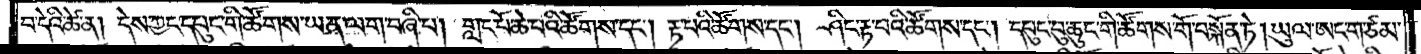བ་དེའི་ཚེ་ན། དེས་ཀྱང་དཔུང་གི་ཚོགས་ཡན་ལག་བཞི་པ། གླང་པོ་ཆེ་པའི་ཚོགས་དང༌། རྟ་པའི་ཚོགས་དང༌། ཤིང་རྟ་པའི་ཚོགས་དང༌། དཔུང་བུ་ཆུང་གི་ཚོགས་གོ་བསྐོན་ཏེ། ཡུལ་ཨང་ག་ཙམ་
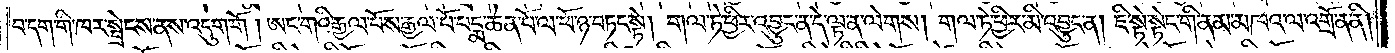བདག་གི་ཁར་སྦྲེངས་ནས་འདུག་གོ །ཨང་གའི་རྒྱལ་པོས་རྒྱལ་པོ་པདྨ་ཆེན་པོ་ལ་ཕོ་ཉ་བཏང་སྟེ། གལ་ཏེ་ཕྱིར་འབྱུང་ན་དེ་ལྟ་ན་ལེགས། གལ་ཏེ་ཕྱིར་མི་འབྱུང་ན། ཇི་སྟེ་སྟེང་གི་ནམ་མཁའ་ལ་འགྲོ་ན་ནི།
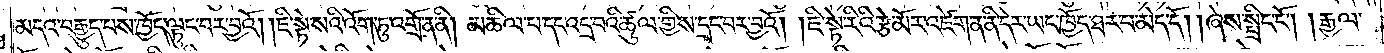མདའ་བརྒྱུད་པས་ཁྱོད་ལྟུང་བར་བྱའོ། །ཇི་སྟེ་སའི་འོག་ཏུ་འགྲོ་ན་ནི། མཆིལ་པ་དང་འདྲ་བའི་ཚུལ་གྱིས་དྲང་བར་བྱའོ། །ཇི་སྟེ་རིའི་རྩེ་མོར་འཛེག་ན་ནི་དེར་ཡང་ཁྱོད་ཐར་པ་མེད་དོ། །ཞེས་སྤྲིང་ངོ༌། །རྒྱལ་
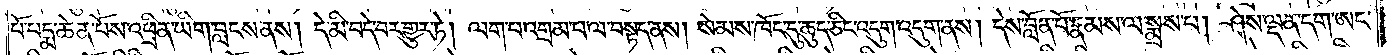པོ་པདྨ་ཆེན་པོས་འཕྲིན་ཡིག་བླངས་ནས། དེ་མི་བདེ་བར་གྱུར་ཏེ། ལག་པ་འགྲམ་པ་ལ་བསྟད་ནས། སེམས་ཁོང་དུ་ཆུད་ཅིང་འདུག་འདུག་ནས། དེས་བློན་པོ་རྣམས་ལ་སྨྲས་པ། ཤེས་ལྡན་དག་ཨང་
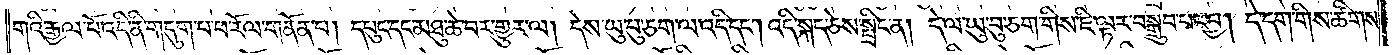གའི་རྒྱལ་པོ་འདི་ནི་གདུག་པ་ཕ་རོལ་གནོན་པ། དཔུང་དང་མཐུ་ཆེ་བར་གྱུར་ལ། དེས་ཡུ་བུ་ཅག་ལ་འདི་དང༌། འདི་སྐད་ཅེས་སྤྲིང་ན། དེ་ལ་ཡུ་བུ་ཅག་གིས་ཇི་ལྟར་བསྒྲུབ་པར་བྱ། དེ་དག་གིས་ཚིགས་
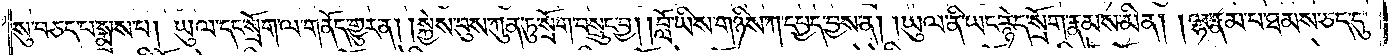སུ་བཅད་པ་སྨྲས་པ། ཡུལ་དང་སྲོག་ལ་གནོད་གྱུར་ན། །སྐྱེས་བུས་ཀུན་ཏུ་སྲོག་བསྲུང་བྱ། །བློ་ཡིས་གཉིས་ཀ་དཔྱད་བྱས་ན། །ཡུལ་ནི་ཡང་རྙེད་སྲོག་རྣམས་མིན། །ལྷ་རྣམ་པ་ཐམས་ཅད་དུ་
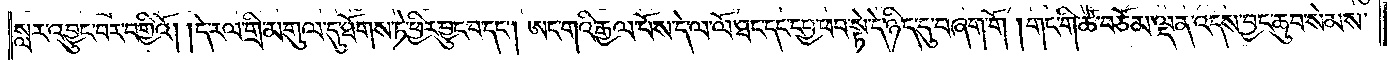སླར་འབྱུང་བར་བགྱིའོ། །དེ་རལ་གྲི་མགུལ་དུ་ཐོགས་ཏེ་ཕྱིར་བྱུང་བ་དང༌། ཨང་གའི་རྒྱལ་པོས་དེ་ལ་ལོ་ཐང་དང་དཔྱ་ཕབ་སྟེ་དེ་ཉིད་དུ་བཞག་གོ །གང་གི་ཚེ་བཅོམ་ལྡན་འདས་བྱང་ཆུབ་སེམས་
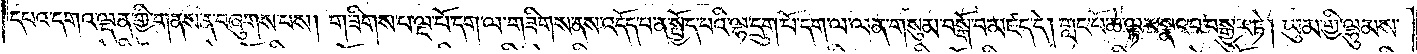དཔའ་དགའ་ལྡན་གྱི་གནས་ན་བཞུགས་པས། གཟིགས་པ་ལྔ་པོ་དག་ལ་གཟིགས་ནས་འདོད་པ་ན་སྤྱོད་པའི་ལྷ་དྲུག་པོ་དག་ལ་ལན་གསུམ་བསྒོ་བ་མཛད་དེ། གླང་པོ་ཆེ་ལྟར་སྣང་བ་བསྒྱུར་ཏེ། ཡུམ་གྱི་ལྷུམས་
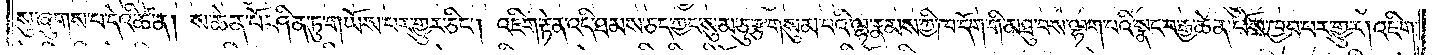སུ་ཞུགས་པ་དེའི་ཚེ་ན། ས་ཆེན་པོ་ཤིན་ཏུ་གཡོས་པར་གྱུར་ཅིང༌། འཇིག་རྟེན་འདི་ཐམས་ཅད་ཀྱང་སུམ་ཅུ་རྩ་གསུམ་པའི་ལྷ་རྣམས་ཀྱི་ཁ་དོག་གི་མཐུ་བས་ལྷག་པའི་སྣང་བ་རྒྱ་ཆེན་པོས་ཁྱབ་པར་གྱུར།འཇིག་
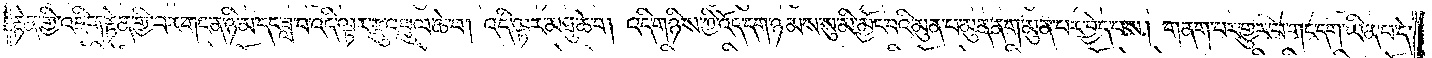རྟེན་གྱི་འཇིག་རྟེན་གྱི་བར་གང་ན་ཉི་མ་དང་ཟླ་བ་འདི་ལྟར་རྫུ་འཕྲུལ་ཆེ་བ། འདི་ལྟར་མཐུ་ཆེ་བ། འདི་གཉིས་ཀྱི་འོད་དག་ཉམས་སུ་མི་མྱོང་བའི་མུན་པ་མུན་ནག་མུན་པར་བྱེད་པས། གནག་པར་གྱུར་པ་གང་དག་ཡིན་པ་དེ་
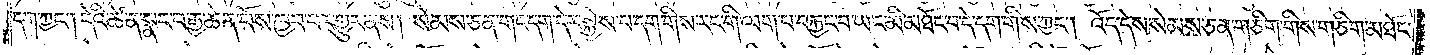དག་ཀྱང༌། དེའི་ཚེ་ན་སྣང་བ་རྒྱ་ཆེན་པོས་ཁྱབ་པར་གྱུར་ནས། སེམས་ཅན་གང་དག་དེར་སྐྱེས་པ་དག་གིས་རང་གི་ལག་པ་བརྐྱང་བ་ཡང་མི་མཐོང་བ་དེ་དག་གིས་ཀྱང༌། འོད་དེས་སེམས་ཅན་གཅིག་གིས་གཅིག་མཐོང་
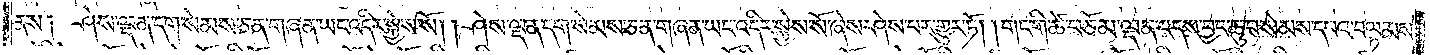ནས༑ ཤེས་ལྡན་དག་སེམས་ཅན་གཞན་ཡང་འདིར་སྐྱེས་སོ། ། ཤེས་ལྡན་དག་སེམས་ཅན་གཞན་ཡང་འདིར་སྐྱེས་སོ་ཞེས་ཤེས་པར་གྱུར་ཏོ། ། གང་གི་ཚེ་བཅོམ་ལྡན་འདས་བྱང་ཆུབ་སེམས་དཔའ་བལྟམས་
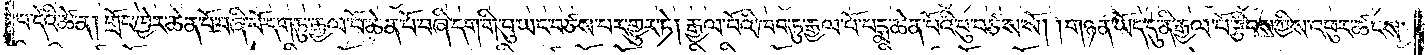པ་དེའི་ཚེ་ན། གྲོང་ཁྱེར་ཆེན་པོ་བཞི་པོ་དག་ཏུ་རྒྱལ་པོ་ཆེན་པོ་བཞི་དག་གི་བུ་ཡང་བཙས་པར་གྱུར་ཏེ། རྒྱལ་པོའི་ཁབ་ཏུ་རྒྱལ་པོ་པདྨ་ཆེན་པོའི་བུ་བཙས་སོ། །གཉན་ཡོད་དུ་ནི་རྒྱལ་པོ་རྩིབས་ཀྱིས་འཕུར་ཚངས་
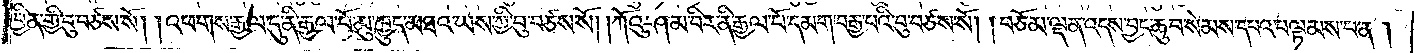བྱིན་གྱི་བུ་བཙས་སོ། ། འཕགས་རྒྱལ་དུ་ནི་རྒྱལ་པོ་མུ་ཁྱུད་མཐའ་ཡས་ཀྱི་བུ་བཙས་སོ། །ཀོའུ་ཤམ་བིར་ནི་རྒྱལ་པོ་དམག་བརྒྱ་བའི་བུ་བཙས་སོ། ། བཅོམ་ལྡན་འདས་བྱང་ཆུབ་སེམས་དཔའ་བལྟམས་པ་ན།
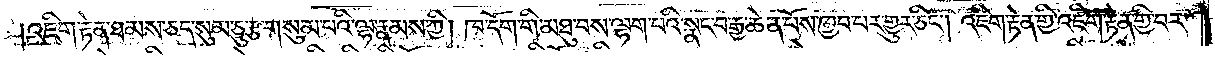འཇིག་རྟེན་ཐམས་ཅད་སུམ་ཅུ་རྩ་གསུམ་པའི་ལྷ་རྣམས་ཀྱི། ཁ་དོག་གི་མཐུ་བས་ལྷག་པའི་སྣང་བ་རྒྱ་ཆེན་པོས་ཁྱབ་པར་གྱུར་ཅིང༌། འཇིག་རྟེན་གྱི་འཇིག་རྟེན་གྱི་བར་
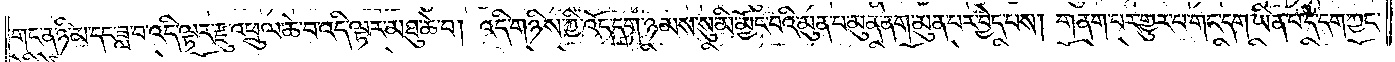གང་ན་ཉི་མ་དང་ཟླ་བ་འདི་ལྟར་རྫུ་འཕྲུལ་ཆེ་བ་འདི་ལྟར་མཐུ་ཆེ་བ། འདི་གཉིས་ཀྱི་འོད་དག་ཉམས་སུ་མི་མྱོང་བའི་མུན་པ་མུན་ནག་མུན་པར་བྱེད་པས། གནག་པར་གྱུར་པ་གང་དག་ཡིན་པ་དེ་དག་ཀྱང་
